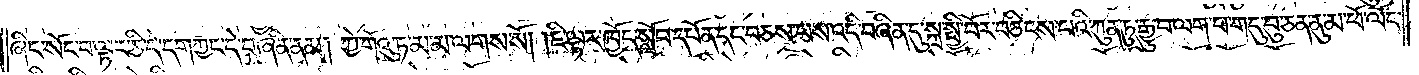ཞིང་སོང་བ་ལྟར་ཅི་དེ་དག་ཀྱང་དེ་བཞིན་ནམ། ཀྱེ་གོའུ་ཏ་མ་མ་ལགས་སོ། །ཇི་ལྟར་ཁྱོད་སློབ་དཔོན་དང་བཅས་པས་འདི་བཞིན་དུ་སྐྲ་སྤྱི་བོར་བཅིངས་པའི་ཀུན་ཏུ་རྒྱུ་བ་ལག་པ་གདུ་བུ་ཅན་ནུ་མ་ཕོ་ལོང་
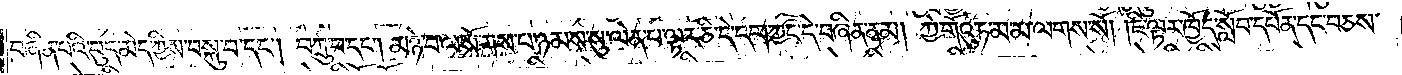བཞིན་པའི་བུད་མེད་ཀྱིས་བསྐུ་བ་དང༌། བཀྲུ་བ་དང༌། མཉེ་བ་ལ་སོགས་པ་ཉམས་སུ་ལེན་པ་ལྟར་ཅི་དེ་དག་ཀྱང་དེ་བཞིན་ནམ། ཀྱེ་གོའུ་ཏ་མ་མ་ལགས་སོ། །ཇི་ལྟར་ཁྱོད་སློབ་དཔོན་དང་བཅས་
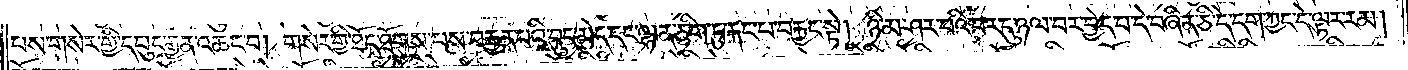པས་གསེར་གྱི་དཔུང་རྒྱན་འཆང་བ། གསེར་གྱི་ཐོད་ཐོགས་པས་བརྒྱན་པའི་བུད་མེད་དང་ལྷན་ཅིག་ཏུ་རྐང་པ་བརྐྱང་སྟེ། ཉི་མ་ཤར་བའི་བར་དུ་ཉལ་བར་བྱེད་པ་དེ་བཞིན་ཅི་དེ་དག་ཀྱང་དེ་ལྟར་རམ།
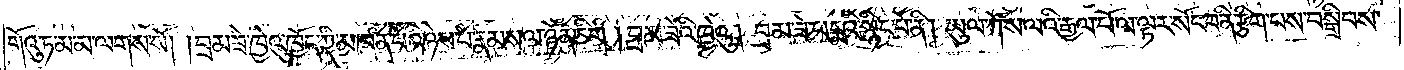གོའུ་ཏ་མ་མ་ལགས་སོ། །བྲམ་ཟེ་ཁྱེའུ་ཁྱོད་ཀྱི་མཁན་པོའི་ཉེས་པ་རྣམས་ལ་ཉོན་ཅིག །བྲམ་ཟེའི་ཁྱེའུ། བྲམ་ཟེ་པདྨའི་སྙིང་པོ་ནི། ཡུལ་ཀོས་ལའི་རྒྱལ་པོ་ལ་ལྟར་སོང་བ་ནི་རྩིག་པས་བསྒྲིབས་
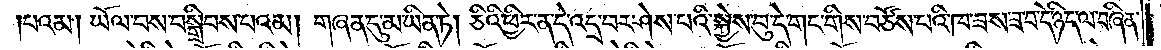པའམ། ཡོལ་བས་བསྒྲིབས་པའམ། གཞན་དུ་མ་ཡིན་ཏེ། ཅིའི་ཕྱིར་ན་དེ་འདྲ་བར་ཤེས་པའི་སྐྱེས་བུ་དེ་གང་གིས་བཙོས་པའི་ཁ་ཟས་ཟ་བ་དེ་ཉིད་ལ་བཞིན་
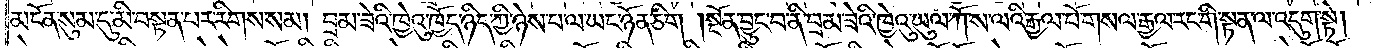མངོན་སུམ་དུ་མི་བསྟན་པར་རིགས་སམ། བྲམ་ཟེའི་ཁྱེའུ་ཁྱོད་ཉིད་ཀྱི་ཉེས་པ་ལ་ཡང་ཉོན་ཅིག །སྔོན་བྱུང་བ་ནི་བྲམ་ཟེའི་ཁྱེའུ་ཡུལ་ཀོ་ས་ལའི་རྒྱལ་པོ་གསལ་རྒྱལ་རང་གི་སྟན་ལ་འདུག་སྟེ།
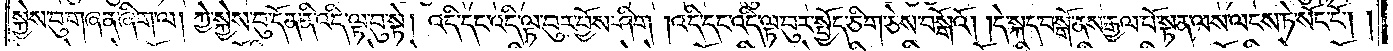སྐྱེས་བུ་གཞན་ཞིག་ལ། ཀྱེ་སྐྱེས་བུ་དོན་ནི་འདི་ལྟ་བུ་སྟེ། འདི་དང་འདི་ལྟ་བུར་བྱོས་ཤིག །འདི་དང་འདི་ལྟ་བུར་སྤྱོད་ཅིག་ཅེས་བསྒོའོ། །དེ་སྐད་བསྒོ་ནས་རྒྱལ་པོ་སྟན་ལས་ལངས་ཏེ་སོང་ངོ༌། །
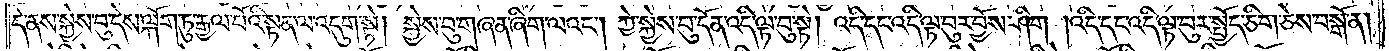དེ་ནས་སྐྱེས་བུ་དེས་ལྐོག་ཏུ་རྒྱལ་པོའི་སྟན་ལ་འདུག་སྟེ། སྐྱེས་བུ་གཞན་ཞིག་ལའང༌། ཀྱེ་སྐྱེས་བུ་དོན་འདི་ལྟ་བུ་སྟེ། འདི་དང་འདི་ལྟ་བུར་བྱོས་ཤིག །འདི་དང་འདི་ལྟ་བུར་སྤྱོད་ཅིག་ཅེས་བསྒོ་ན།
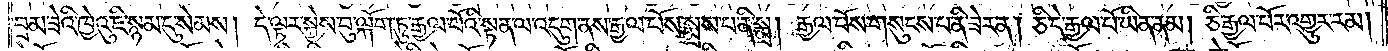བྲམ་ཟེའི་ཁྱེའུ་ཇི་སྙམ་དུ་སེམས། དེ་ལྟར་སྐྱེས་བུ་ལྐོག་ཏུ་རྒྱལ་པོའི་སྟན་ལ་འདུག་ནས་རྒྱལ་པོས་སྨྲས་པ་ནི་སྨྲ། རྒྱལ་པོས་གསུངས་པ་ནི་ཟེར་ན། ཅི་དེ་རྒྱལ་པོ་ཡིན་ནམ། ཅི་རྒྱལ་པོར་འགྱུར་རམ།
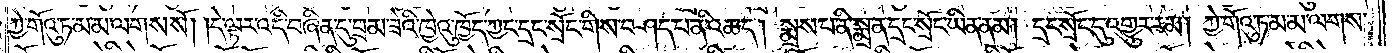ཀྱེ་གོའུ་ཏ་མ་མ་ལགས་སོ། །དེ་ལྟར་འདི་བཞིན་དུ་བྲམ་ཟེའི་ཁྱེའུ་ཁྱོད་ཀྱང་དྲང་སྲོང་གིས་བཤད་པ་ནི་འཆད། སྨྲས་པ་ནི་སྨྲ་ན་དྲང་སྲོང་ཡིན་ནམ། དྲང་སྲོང་དུ་འགྱུར་རམ། ཀྱེ་གོའུ་ཏ་མ་མ་ལགས་
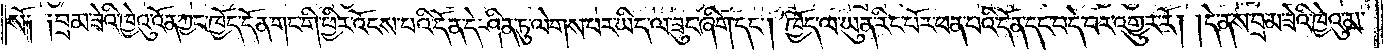སོ༑ ༑བྲམ་ཟེའི་ཁྱེའུ་འོན་ཀྱང་ཁྱོད་དོན་གང་གི་ཕྱིར་འོངས་པའི་དོན་དེ་ཤིན་ཏུ་ལེགས་པར་ཡིད་ལ་ཟུང་ཞིག་དང༌། ཁྱོད་ལ་ཡུན་རིང་པོར་ཕན་པའི་དོན་དང་བདེ་བར་འགྱུར་རོ། །དེ་ནས་བྲམ་ཟེའི་ཁྱེའུ་མ་
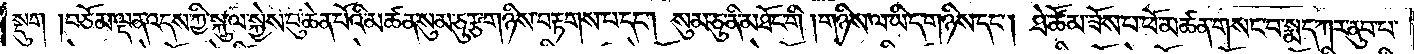སྡུག །བཅོམ་ལྡན་འདས་ཀྱི་སྐུ་ལ་སྐྱེས་བུ་ཆེན་པོའི་མཚན་སུམ་ཅུ་རྩ་གཉིས་བརྟགས་པ་དང༌། སུམ་ཅུ་ནི་མཐོང་གི །གཉིས་ལ་ཡིད་གཉིས་དང༌། ཐེ་ཚོམ་ཟོས་པ་ཕོ་མཚན་གསང་བ་སྨད་ཀར་ནུབ་པ་
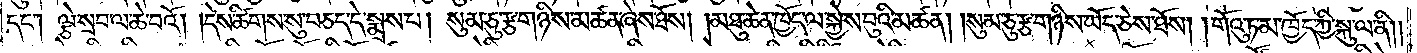དང༌། ལྕེ་སྲབ་ལ་ཆེ་བའོ། །དེས་ཚིགས་སུ་བཅད་དེ་སྨྲས་པ། སུམ་ཅུ་རྩ་གཉིས་མཚན་ཞེས་ཐོས། །མཐུ་ཆེན་ཁྱོད་ལ་སྐྱེས་བུའི་མཚན། །སུམ་ཅུ་རྩ་གཉིས་ཡོད་ཅེས་ཐོས། །གོའུ་ཏ་མ་ཁྱོད་ཀྱི་སྐུ་ལ་ནི། །
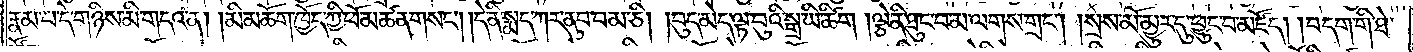རྣམ་པ་དེ་གཉིས་མི་གདའ་ན། །མི་མཆོག་ཁྱོད་ཀྱི་ཕོ་མཚན་གསང༌། །དེ་ནི་སྨད་ཀར་ནུབ་བམ་ཅི་།བུད་མེད་ལྟ་བུའི་སྒྲ་ཡི་ཚིག །ལྕེ་ནི་ཐུང་བམ་ལགས་གྲང༌། །སྲས་མོ་མྱུར་དུ་ཕྱུང་བ་མཛོད། །བདག་གི་ཐེ་
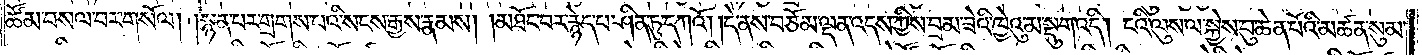ཚོམ་བསལ་བར་གསོལ། །སྙན་པར་གྲགས་པའི་སངས་རྒྱས་རྣམས། །མཐོང་བར་རྙེད་པ་ཤིན་ཏུ་དཀའོ། །དེ་ནས་བཅོམ་ལྡན་འདས་ཀྱིས་བྲམ་ཟེའི་ཁྱེའུ་མ་སྡུག་འདི། ངའི་ལུས་ལ་སྐྱེས་བུ་ཆེན་པོའི་མཚན་སུམ་
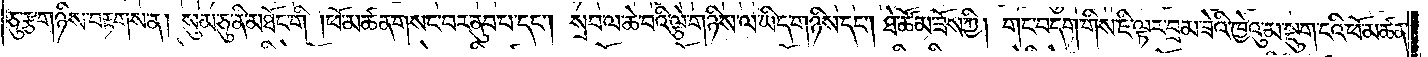ཅུ་རྩ་གཉིས་བརྟགས་ན། སུམ་ཅུ་ནི་མཐོང་གི །ཕོ་མཚན་གསང་བར་ནུབ་པ་དང༌། སྲབ་ལ་ཆེ་བའི་ལྕེ་གཉིས་ལ་ཡིད་གཉིས་དང༌། ཐེ་ཚོམ་ཟོས་ཀྱི། གང་བདག་གིས་ཇི་ལྟར་བྲམ་ཟེའི་ཁྱེའུ་མ་སྡུག་ངའི་ཕོ་མཚན་
